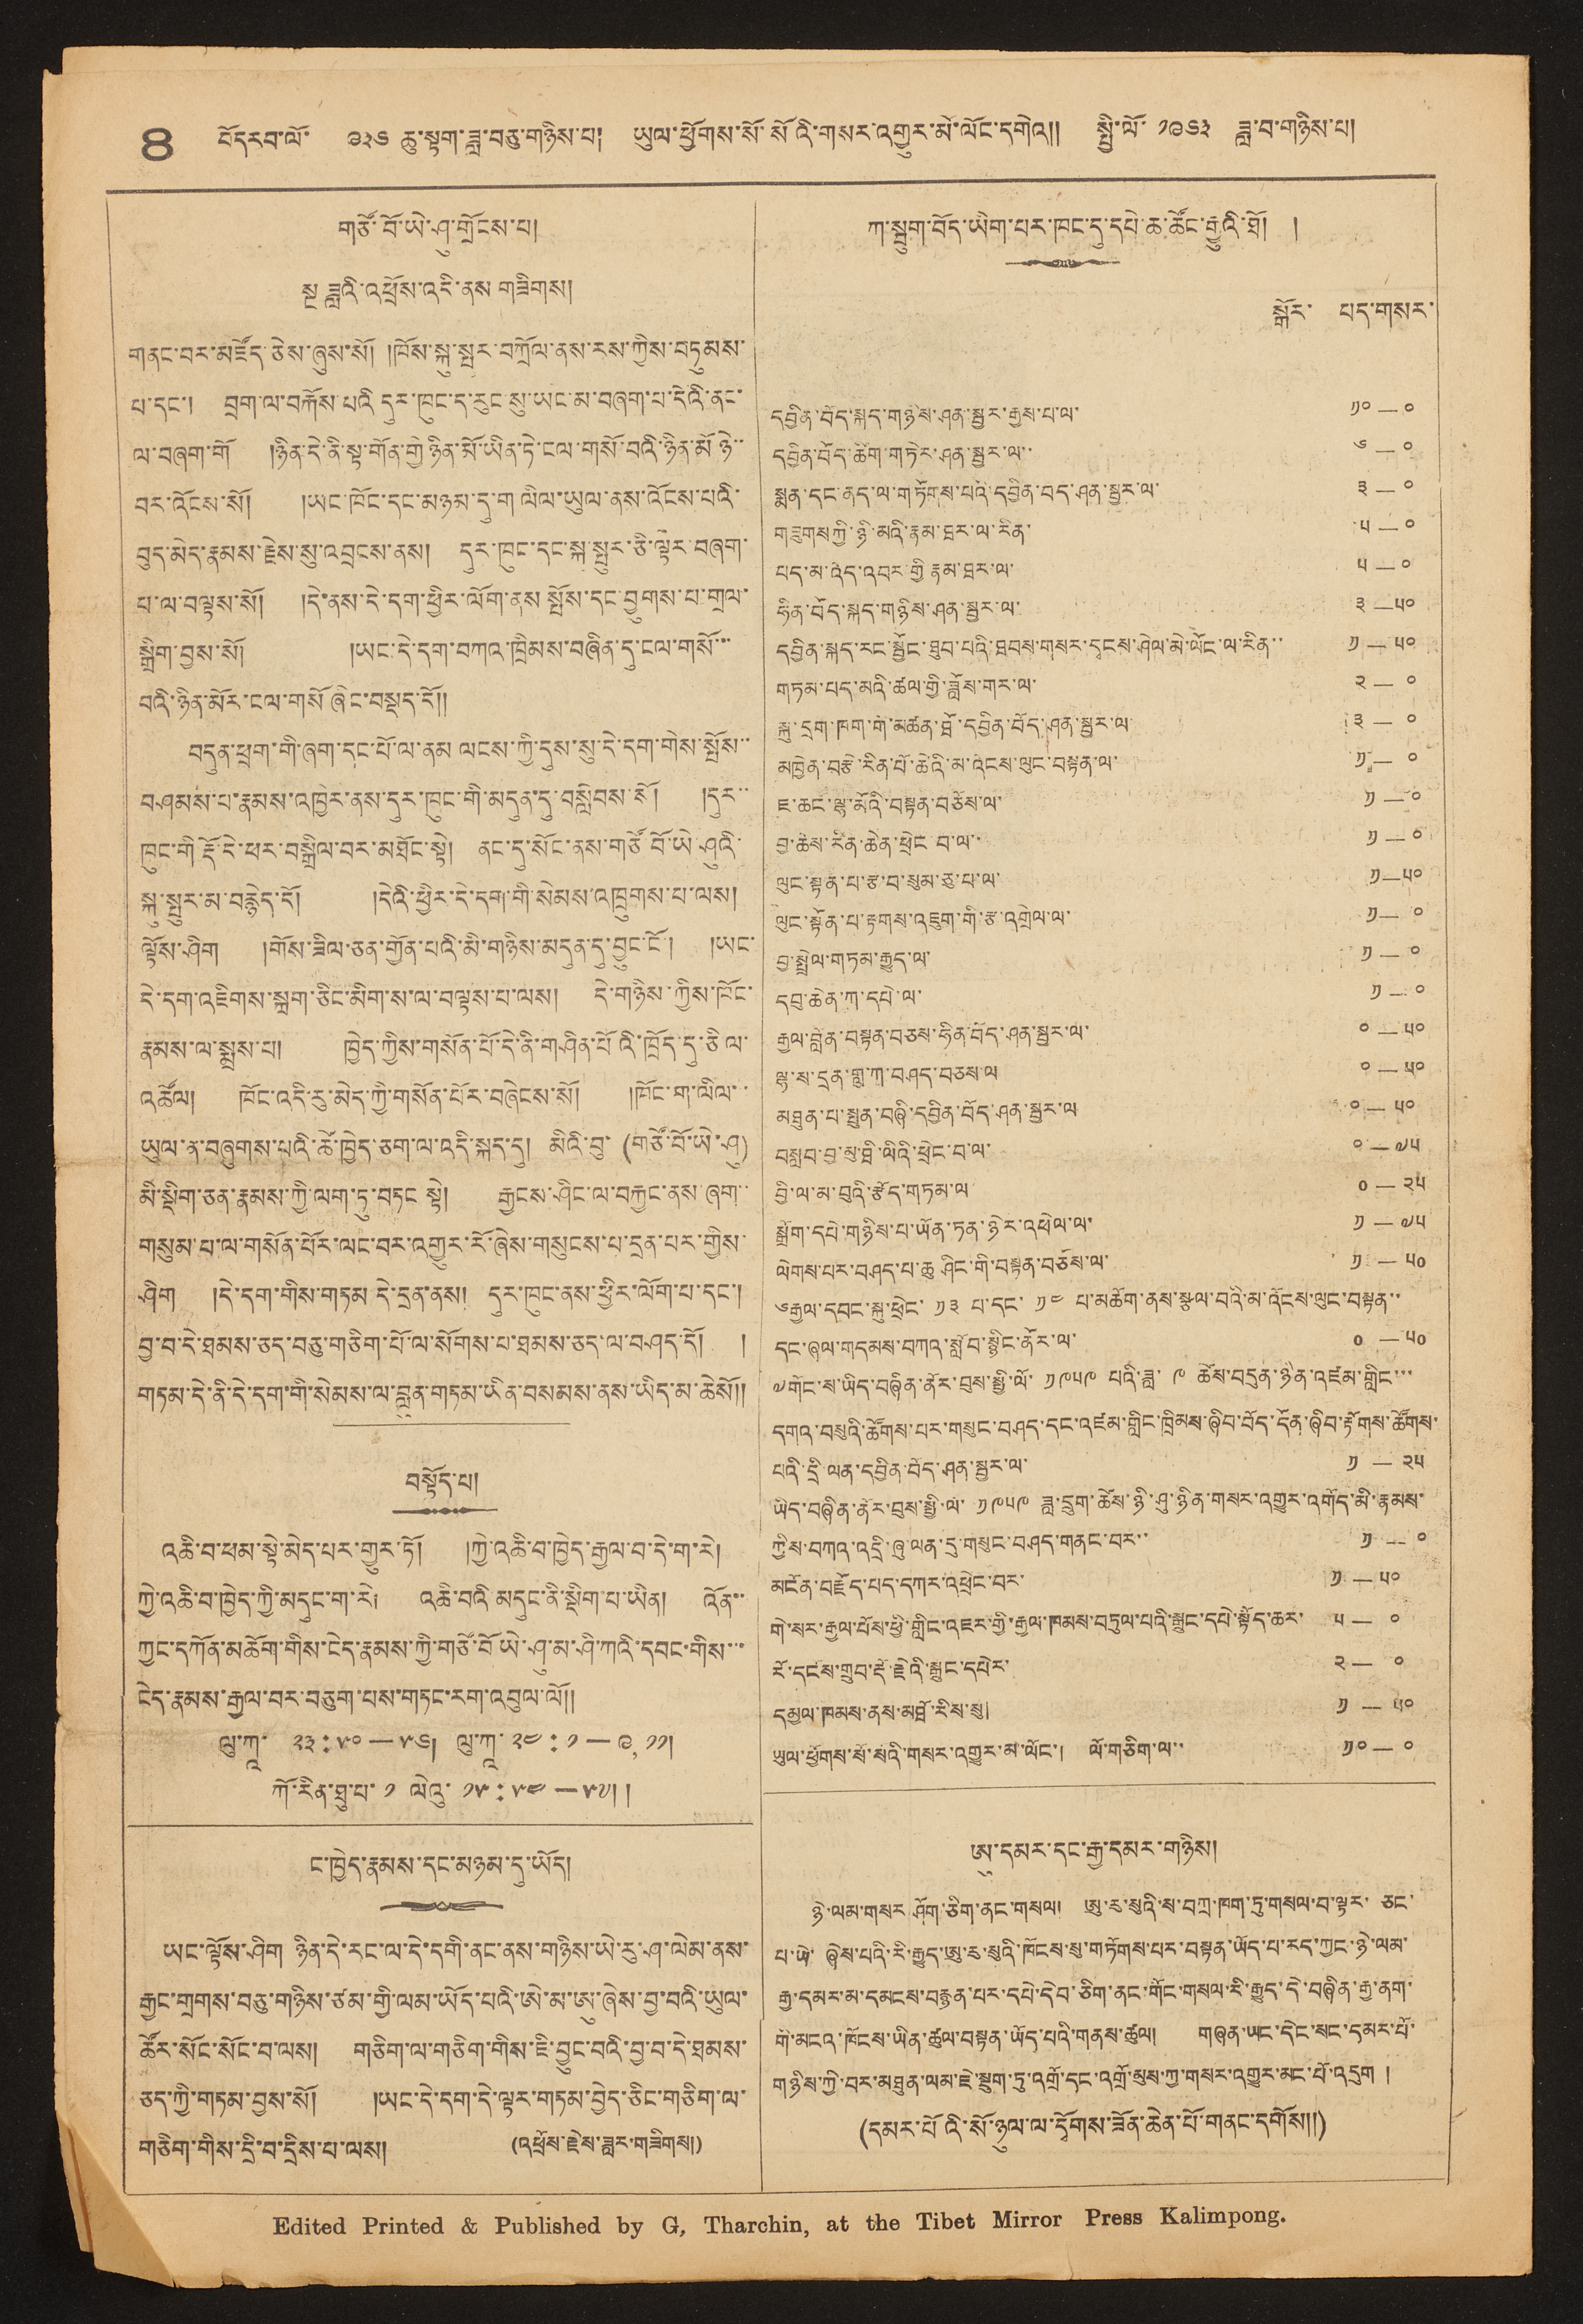8 བོད རབ་ལོ་ ༩༣༦ ཆུ་སྟག་ཟླ་བཅུ་གཉིས་པ། ཡུལ་ཕྱོགས་སོ་སོའི་གསར་འགྱུར་མེ་ལོང་དགེའོ།། སྤྱི་ལོ་ ༡༩༦༣ ཟླ་བ་གཉིས་པ།
གཙོ་བོ་ཡེ་ཤུ་གྲོངས་པ།
སྔ ཟླའི་འཕྲོས་འདི་ནས་གཟིགས།
གནང་བར་མཛོད་ཅེས་ཞུས་སོ། །ཁོས་སྐུ་སྤར་བཀྲོལ་ནས་རས་ཀྱིས་བཏུམས་
པ་དང་། བྲག་ལ་བརྐོས་པའི དུང་ཁུང་ད་རུང་སུ་ཡང་མ་བཞག་པ་དེའི་ནང་
ལ་བཞག་གོ །ཉིན་དེ་ནི་སྟ་གོན་གྱི་ཉིན་མོ་ཡིན་ཏེ་ངལ་གསོ་བའི་ཉིན་མོ ཉེ་་
བར་འོངས་སོ། །ཡང་ཁོང་དང་མཉམ་དུ་ག་ལིལ་ཡུལ་ནས་ལོངས་པའི་
བུད་མེད་རྣམས་རྗེས་སུ་འབྲངས་ནས། དུར་ཁུང་དང་སྐ་སྤུར་ཅི་ལྟར་བཞག་
པ་ལ་བལྟས་སོ། །དེ་ནས་དེ་དག་ཕྱིར་ལོག་ནས་སྤོས་དང་བྱུགས་པ་གྲལ་
སྒྲིག་བྱས་སོ། །ཡང་དེ་དག་བཀའ་ཁྲིམས་བཞིན་དུ་ངལ་གསོ་་་
བའི་ཉིན་མོར་ངལ་གསོ ཞིང་བསྡད་དོ།།
བདུན་ཕྲག་གི་ཞག་དང་པོ་ལ་ནམ ལངས་ཀྱི་དུས་སུ་དེ་དག་གིས་སྤོས་་
བཤམས་པ་རྣམས་འཁྱེར་ན་དུར་ཁུང་གི་མདུན་དུ་བསླེབས་སོ། །དུར་་
ཁུང་གི རྡོ་དེ་ཕར་བསྒྲིལ་བར་མཐོང་སྟེ། ནང་དུ་སོང་ནས་གཙོ བོ་ཡེ་ཤུའི་
སྐུ་སྤུར་མ་བརྙེད་དོ། །དེའི་ཕྱིར་དེ་དག་གི་སེམས་འཁྲུགས་པ་ལས།
ལྟོས་ཤིག །གོས་ཟིལ་ཅན་གྱོན་པའི་མི་གཉིས་མདུན་དུ་བྱུང་ངོ་། །ཡང་
དེ་དག་འཇིགས་སྐྲག་ཅིང་མིག་ས་ལ་བལྟས་པ་ལས། དེ་གཉིས་ཀྱིས་ཁོང་
རྣམས་ལ་སྨྲས་པ། ཁྱེད་ཀྱིས་གསོན་པོ་དེ་ནི་གཤིན་པོའི་ཁྲོད་དུ་ཅིལ་
འཚོལ། ཁོང་འདི་རུ་མེད་ཀྱི་གསོན་པོར་བཞེངས་སོ། །ཁོང་ག་ལིལ་་
ཡུལ་ན་བཞུགས་པའི་ཚེ་ཁྱེད་ཅག་ལ་འདི་སྐད་དུ། མིའི་བུ་ (གཙོ་བོ་ཡེ་ཤུ)
མི་སྡིག་ཅན་རྣམས་ཀྱི་ལག་ཏུ་བཏང སྟེ། རྒྱངས་ཤིང་ལ་བརྐྱང་ནས་ཞག་་
གསུམ་པ་ལ་གསོན་པོར་ལང་བར་འགྱུར་རོ་ཞེས་གསུངས་པ་དྲན་པར་གྱིས་
ཤིག །དེ་དག་གིས་གཏམ དེ་དྲན་ནས། དུར་ཁུང་ནས་ཕྱིར་ལོག་པ་དང་།
བྱ་བ་དེ་ཐམས་ཅད་བཅུ་གཅིག་པོ་ལ་སོགས་པ་ཐམས་ཅད་ལ་བཤད་དོ། །
གཏམ་ད་ནི་དེ་དག་སེམས་ལ་བླུན་གཏམ་ཡིན་བསམས་ན་སྱིད་མ་ཆེསོ།།
བསྟོད་པ།
འཆི་བ་ཕམ་སྟེ་མེད་པར་གྱུར་ཏོ། །ཀྱེ་འཆི་བ་ཁྱེད་རྒྱལ་བ་དེ་ག་རེ།
ཀྱེ་འཆི་བ་ཁྱེད་ཀྱི་མདུང་ག་རེ། འཆི་བའི་མདུང་ནི་སྡིག་པ་ཡིན། འོན་་
ཀྱང་དཀོན་མཆོག་གིས་ངེད་རྣམས་ཀྱི་གཙོ་བོ་ཡེ་ཤུ་མ་ཤི་ཀའི་དབང་གིས་་་
ངེད་རྣམས་རྒྱལ་བར་བཅུག་པས་གཏང་རག་འབུལ་ལོ།།
ལུ་ཀཱ་ ༢༣ : ༥༠ — ༥༦། ལུ་ཀཱ་ ༢༤ : ༡ — ༩, ༡༡།
ཀོ་རིན་ཐུ་པ་ ༡ ལེའུ་ ༡༥ : ༥༤ — ༥༧། །
ང་ཁྱེད་རྣམས་དང་མཉམ་དུ་ཡོད།
ཡང་ལྟོས་ཤིག ཉིན་དེ་རང་ལ་དེ་དག་ནང་ནས་གཉིས་ཡེ་རུ་ཤ་ལེམ་ནས
རྒྱང་གྲགས་བཅུ་གཉིས་ཙམ་གྱི་ལམ་ཡོད་པའི་ཨེ་མ་ཨུ་ཞེས་བྱ་བའི་ཡུལ་
ཚོར་སོང་སོང་བ་ལས། གཅིག་ལ་གཅིག་གིས་ཇི་བྱུང་བའི་བྱ་བ་དེ་ཐམས་
ཅད་ཀྱི་གཏམ་བྱས་སོ། །ཡང་དེ་དག་དེ་ལྟར་གཏམ་བྱེད་ཅིང་གཅིག་ལ་
གཅིག་གིས་དྲི་བ་དྲིས་པ་ལས། (འཕྲོས་རྗེས་ཟླར་གཟིགས།)
ཀ་སྦུག་བོད་ཡིག་པར་ཁང་དུ་དཔེ་ཆ་ཚོང་རྒྱུའི་ཐོ། །
ཨུ་དམར་དང་རྒྱ་དམར་གཉིས།
ཉེ་ལམ་གསར ཤོག་ཅིག་ནང་གསལ། ཨུ་རུ་སུའི་བཀྲ་ཁག་ཏུ་གསལ་བ་ལྟར་ ཅང་
པ་ཡེ་ ཞེས་པའི་རི་རྒྱུད་ཨུ་རུ་སུའི་ཁོངས་སུ་གཏོགས་པར་བསྟན་ཡོད་པ་རད་ཀྱང་ཉེ་ལམ་
རྒྱ་དམར་མ་དམངས་བརྙན་པར་དཔེ་དེབ་ཅིག་ནང་གོང་གསལ་རི་རྒྱུད་དེ་བཞིན་རྒྱ་ནག་
གི་མངའ་ཁོངས་ཡིན་ཚུལ་བསྟན་ཡོད་པའི་གནས་ཚུལ། གཞན་ཡང་དེང་སང་དམར་པོ་
གཉིས་ཀྱི་བར་མཐུན་ལམ་ཇེ་སྔུག་ཏུ་འགྲོ་དང་འགྲོ་མུས་ཀྱ་གསར་འགྱུར་མང་པོ་འདུག །
(དམར་པོའི་སོ་ཉུལ་ལ་དྭོགས་ཟོན་ཆེན་པོ་གནང་དགོས།།)
Edited Printed & Published by G, Tharchin, at the Tibet Mirror Press Kalimpong.
